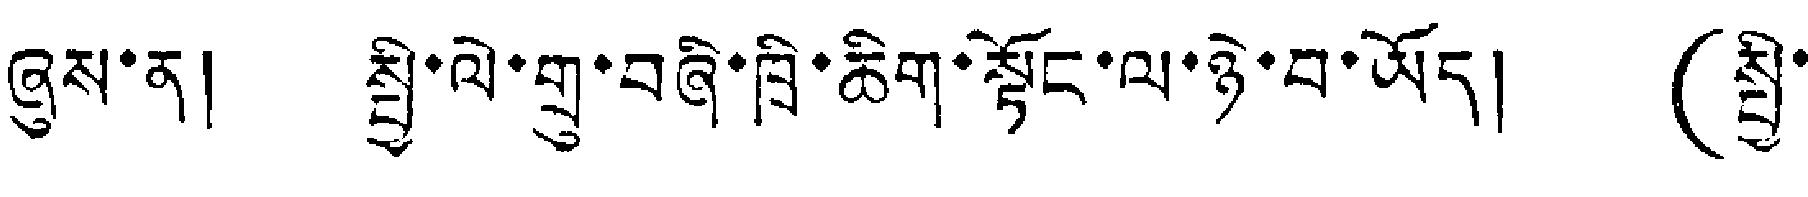ཞུས་ན། སྤྱི་ལེ་གྲུ་བཞི་ཁྲི་ཆིག་སྟོང་ལ་ཉེ་བ་ཡོད། (སྤྱི་
